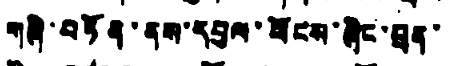གཞི་བཏོན་ནས་དབུལ་ཕོངས་ཞིང་བྲན་
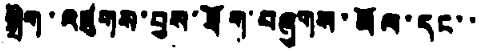སྒྲིག་འཛུགས་བྱས་ཐོག་བཞུགས་མོལ་དང་་
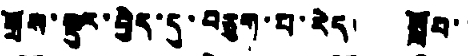གྲོས་སྡུར་བྱེད་དུ་བཅུག་པ་རེད། སློབ་
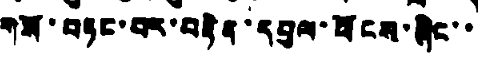གསོ་བཏང་བར་བརྟེན་དབུལ་ཕོངས་ཞིང་་
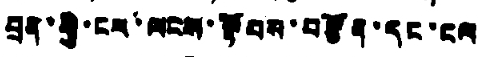བྲན་གྱི་ངར་ལངས་སྟོབས་བརྩོན་དང་ངལ
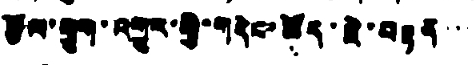རྩོལ་ཕྱུག་འགྱུར་གྱི་གདེང་ཚོད་ཇེ་བརྟན་་་
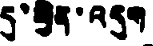དུ་ཕྱིན་འདུག
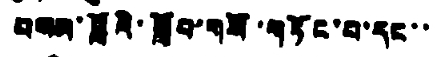བསམ་བློའི་སློབ་གསོ་གཏོང་བ་དང་་་
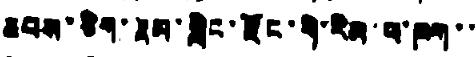ཆབས་ཅིག་རྣམ་གླིང་རྫོང་གི་རིམ་པ་ཁག་་
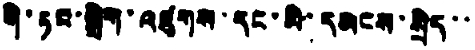གི་ཏང་སྒྲིག་འཛུགས་དང་མི་དམངས་སྲིད་་
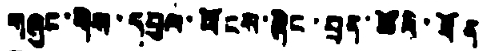གཞུང་གིས་དབུལ་ཕོངས་ཞིང་བྲན་ཚོའི་ཐོན
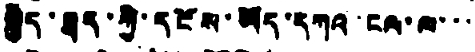སྐྱེད་ཐད་ཀྱི་དངོས་ཡོད་དཀའ་ངལ་ལ་་་
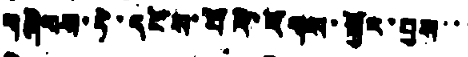གཞིགས་ཏེ་དངོས་པོའི་རོགས་སྐྱོར་བྱས་་་
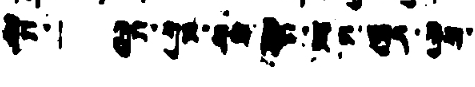ཞིང་། ཀྲུང་གུང་རྣམ་གླིང་རྫོང་ཨུད་ཀྱིས་
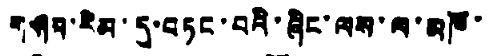གཤམ་རིམ་དུ་བཏང་བའི་ཞིང་ལས་ལ་མཁོ་
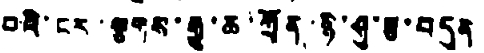བའི་ངར་ལྕགས་རྒྱུ་ཆ་ཀྲོན་ཉི་ཤུ་རྩ་བདུན
